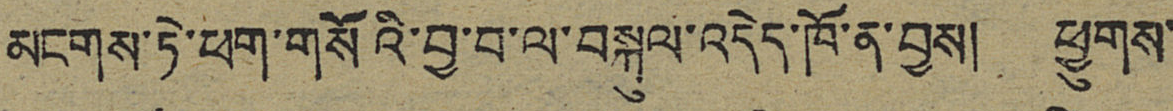མངགས་ཏེ་ཕག་གསོའི་བྱ་བ་ལ་བསྐུལ་འདེད་ཁོ་ན་བྱས། ཕྱུགས་
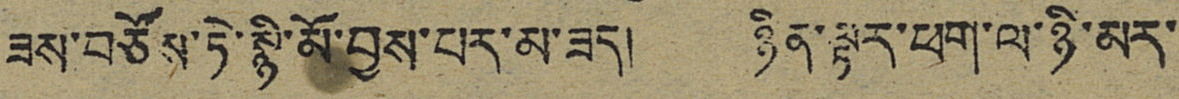ཟས་བཙོས་ཏེ་སྙི་མོ་བྱས་པར་མ་ཟད། ཉིན་ལྟར་ཕག་ལ་ཉི་མར་
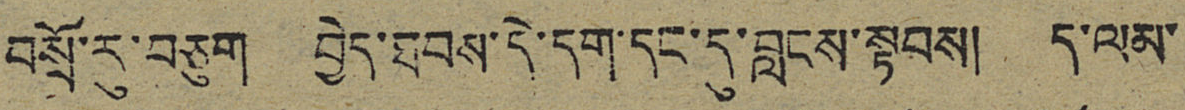བསྲོ་རུ་བཅུག བྱེད་ཐབས་དེ་དག་དང་དུ་བླངས་སྟབས། ད་ལམ་
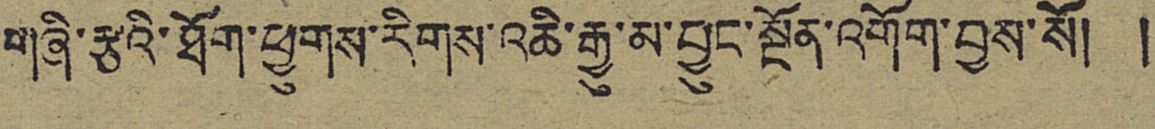གཞི་རྩའི་ཐོག་ཕྱུགས་རིགས་འཆི་རྒྱུ་མ་བྱུང་སྔོན་འགོག་བྱས་སོ། །
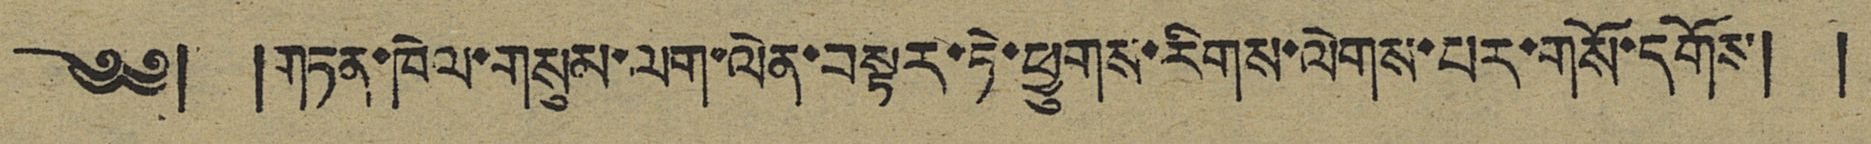༄༅། །གཏན་ཁེལ་གསུམ་ལག་ལེན་བསྟར་ཏེ་ཕྱུགས་རིགས་ལེགས་པར་གསོ་དགོས། །
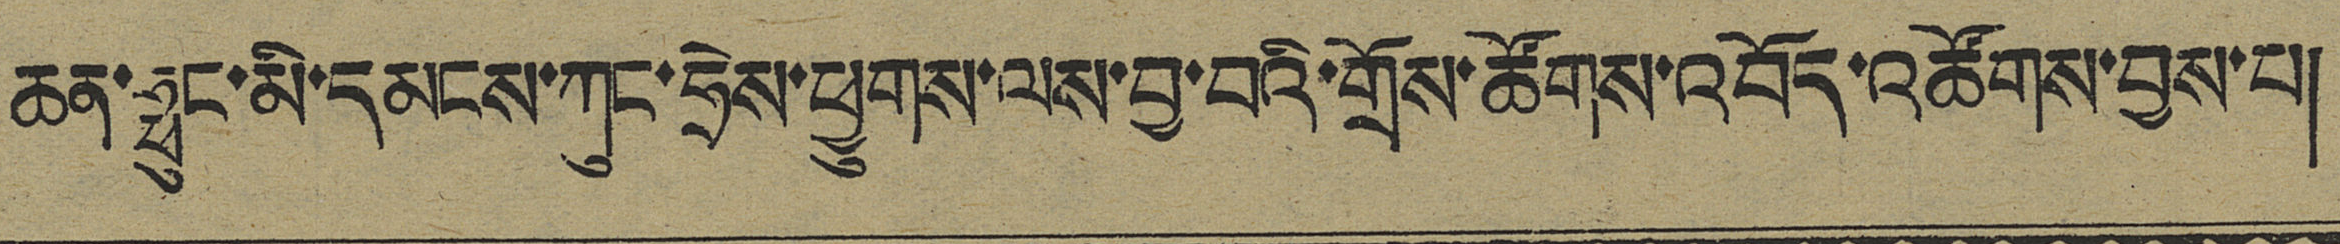ཆན་ཧྥུང་མི་དམངས་ཀུང་ཧྲེས་ཕྱུགས་ལས་བྱ་བའི་གྲོས་ཚོགས་འབོད་འཚོགས་བྱས་པ།
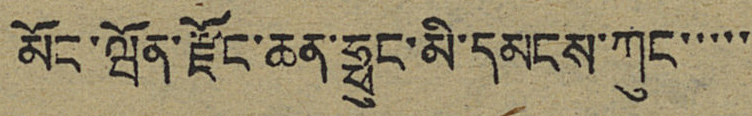མོང་ཝོན་རྫོང་ཆན་ཧྥུང་མི་དམངས་ཀུང་་་་་
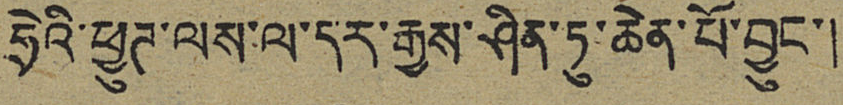ཧྲེའི་ཕྱུཊ་ལས་ལ་དར་རྒྱས་ཤིན་ཏུ་ཆེན་པོ་བྱུང་།
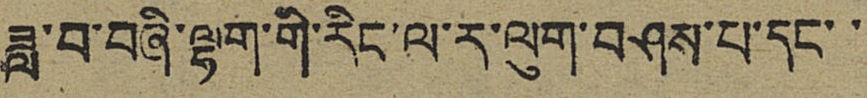ཟླ་བ་བཞི་ལྷག་གི་རིང་ལ་ར་ལུག་བཤས་པ་དང་་
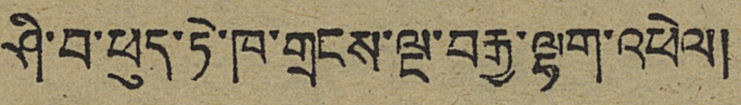ཤི་བ་ཕུད་ཏེ་ཁ་གྲངས་ལྔ་བརྒྱ་ལྷག་འཕེལ།
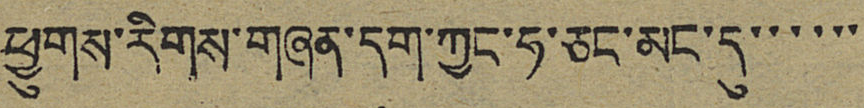ཕྱུགས་རིགས་གཞན་དག་ཀྱང་ཧ་ཅང་མང་དུ་་་་་་
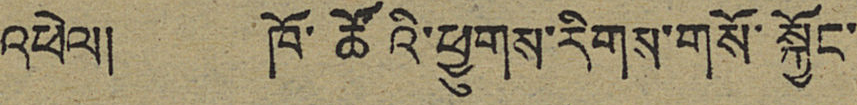འཕེལ། ཁོ་ཚོའི་ཕྱུགས་རིགས་གསོ་སྐྱོང་
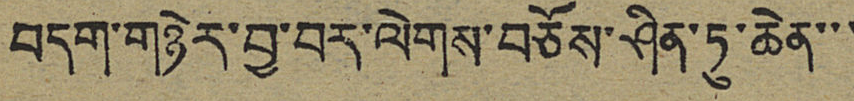བདག་གཉེར་བྱ་བར་ལེགས་བཅོས་ཤིན་ཏུ་ཆེན་་་
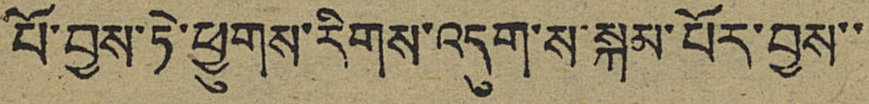པོ་བྱས་ཏེ་ཕྱུགས་རིགས་འདུག་ས་སྐམ་པོར་བྱས་་
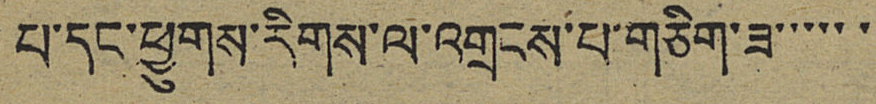པ་དང་ཕྱུགས་རིགས་ལ་འགྲངས་པ་གཅིག་ཟ་་་་་་
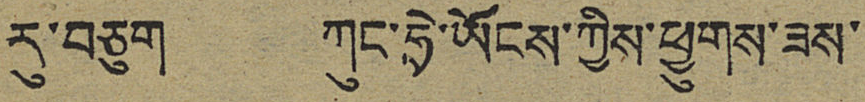རུ་བཅུག ཀུང་ཧྲེ་ཡོངས་ཀྱིས་ཕྱུགས་ཟས་
